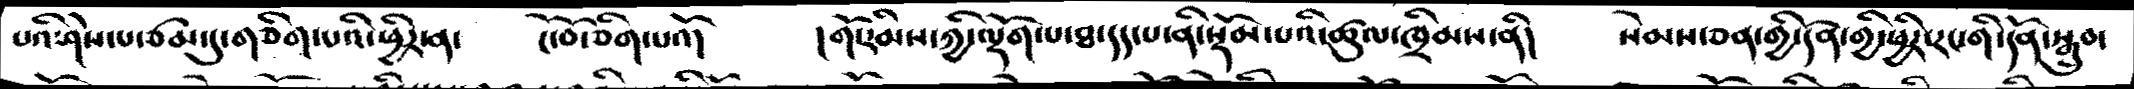པའི་ཤེས་པ་ཙམ་དུ་གཅིག་པའི་ཕྱིར་ན་   ངོ་བོ་ཅིག་པའོ།   །གོ་རིམས་ཀྱི་ལྡོག་པ་ཐ་དད་པ་ནི་སྡོམ་པའི་ཚུལ་ཁྲིམས་ནི།    སེམས་ཅན་གྱི་དོན་གྱི་ཕྱིར་རང་གི་དོན་སྒྲུབ་
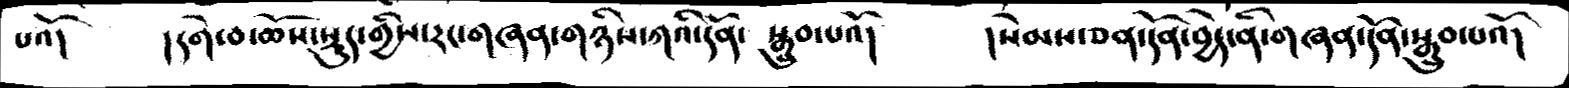པའོ།    །དགེ་བ་ཆོས་སྡུད་གྱིས་རང་གཞན་གཉིས་ཀའི་དོན་  སྒྲུབ་པའོ།       །སེམས་ཅན་དོན་བྱེད་ནི་གཞན་དོན་སྒྲུབ་པའོ།
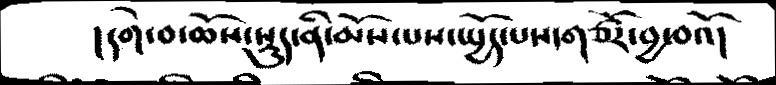།དགེ་བ་ཆོས་སྡུད་ནི་མོས་པས་སྤྱོད་པས་གཙོར་བྱ་བའོ།
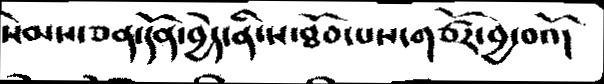སེམས་ཅན་དོན་བྱེད་ནི་ས་ཐོབ་པས་གཙོར་བྱ་བའོ།
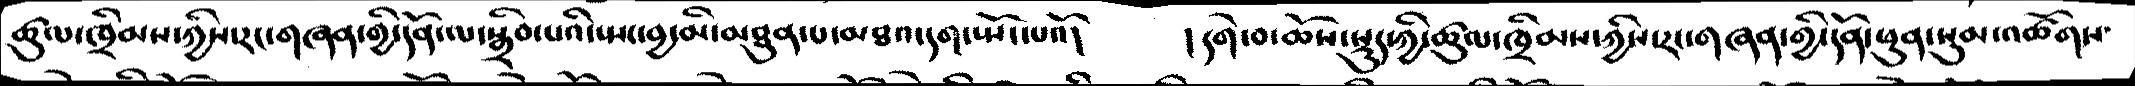ཚུལ་ཁྲིམས་ཀྱིས་རང་གཞན་གྱི་དོན་ལ་སྒྲིབ་པའི་སྤང་བྱ་མི་མཐུན་པ་མཐའ་དག་སྤོང་པའོ།   །དགེ་བ་ཆོས་སྡུད་ཀྱི་ཚུལ་ཁྲིམས་ཀྱིས་རང་གཞན་གྱི་དོན་ཕུན་སུམ་འཚོགས་
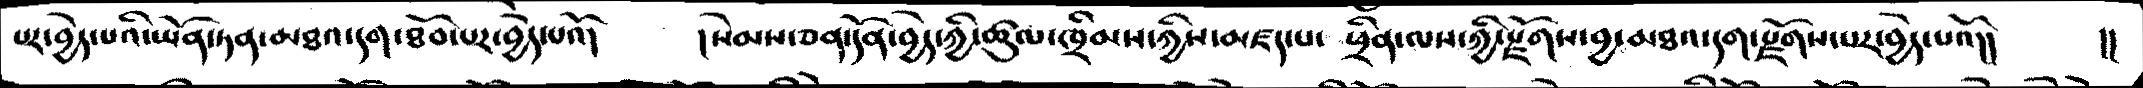པར་བྱེད་པའི་ཡོན་ཏན་མཐའ་དག་ཐོབ་པར་བྱེད་པའོ།   །སེམས་ཅན་དོན་བྱེད་ཀྱི་ཚུལ་ཁྲིམས་ཀྱིས་མཛད་པ་ ཕྲིན་ལས་ཀྱི་རྫོགས་བྱ་མཐའ་དག་རྫོགས་པར་བྱེད་པའོ།།  །།
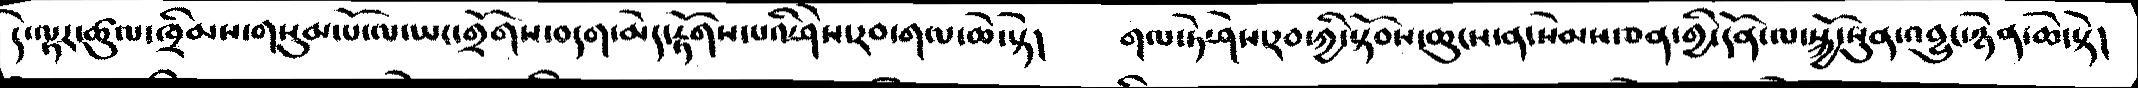དེ་ལྟར་ཚུལ་ཁྲིམས་གསུམ་པོ་ལ་ཡང་གྲོགས་བདག་མེད་རྟོགས་པའི་ཤེས་རབ་གལ་ཆེ་སྟེ།   གལ་ཏེ་ཤེས་རབ་ཀྱི་སྟོབས་ཆུངས་ན་སེམས་ཅན་གྱི་དོན་ལ་སྐྱོ་སུན་འབྱུང་ཉེན་ཆེ་སྟེ།
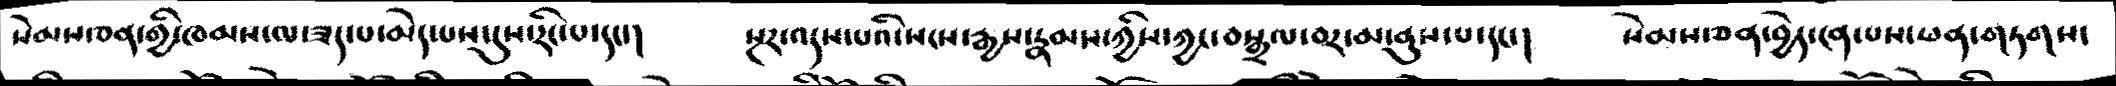སེམས་ཅན་གྱི་ཁམས་ལ་ཟད་པ་མེད་པས་དུས་རིང་པ་དང་།   སྔར་འདས་པའི་སངས་རྒྱས་རྣམས་ཀྱིས་ཀྱང་བསྒྲལ་བར་མ་ནུས་པ་དང་།   སེམས་ཅན་བྱེད་ངན་པས་ཕན་གཏགས་
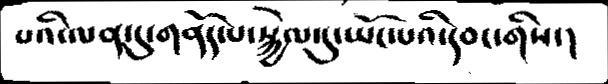པའི་ལན་དུ་གནོད་པ་སྐྱེལ་དུ་ཡོང་པའི་དབང་གིས་།
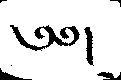༄༅།
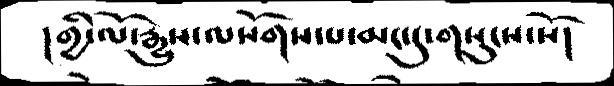།གྱི་ལོ་རྒྱུས་ལསོགས་པ་མང་དུ་གསུངས་སོ།
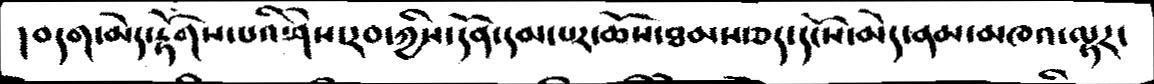།བདག་མེད་རྟོགས་པའི་ཤེས་རབ་ཀྱིས་དོན་དམ་པར་ཆོས་ཐམས་ཅད་དངོས་མེད་ནམ་མཁའ་ལྟར་
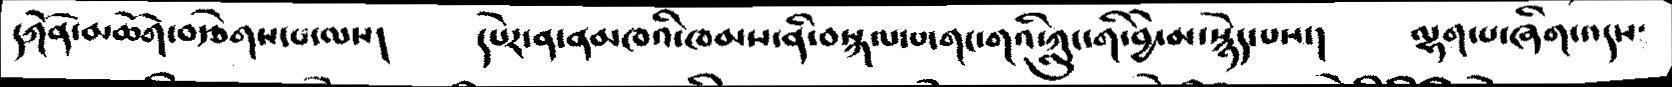དཀོན་མཆོག་བརྩེགས་པ་ལས།   དཔེར་ན་ནམཁའི་ཁམས་ནི་བསྐལ་པ་གང་གའི་ཀླུང་གི་བྱེ་མ་སྙེད་པས་།   ལྷག་པ་ཞིག་འདས་
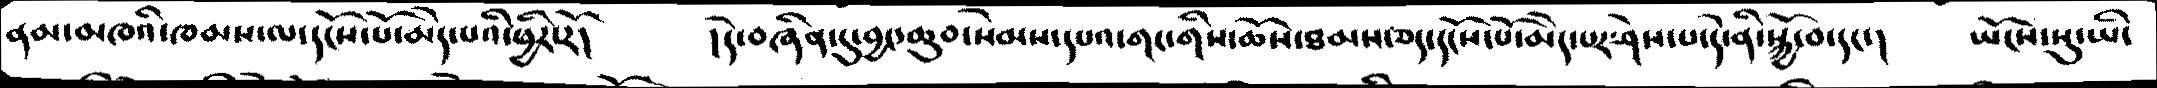ནམ་མཁའི་ཁམས་ལ་དངོས་པོ་མེད་པའི་ཕྱིར་རོ།    །དེ་བཞིན་དུ་བྱང་ཆུབ་སེམས་དཔའ་གང་གིས་ཆོས་ཐམས་ཅད་དངོས་པོ་མེད་པར་ཤེས་པ་དེ་ནི་སྐྱོ་བ་དང་།  ཡོངས་སུ་ཡི་
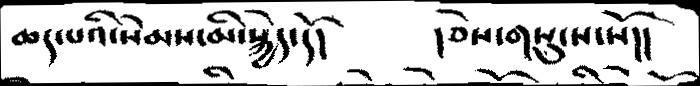ཆད་པའི་སེམས་མི་སྐྱེད་དོ།    །ཅེས་གསུངས་སོ།།
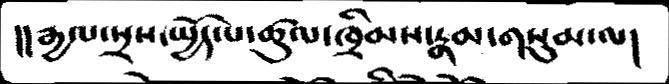།།རྒྱལ་སྲས་སྤྱོད་པ་ཚུལ་ཁྲིམས་རྣམ་གསུམ་ལ།
